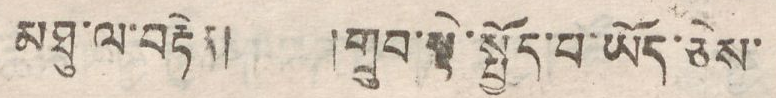མཐུ་ལ་བརྟེན། །གྲུབ་སྟེ་སྤྱོད་པ་ཡོད་ཅེས་
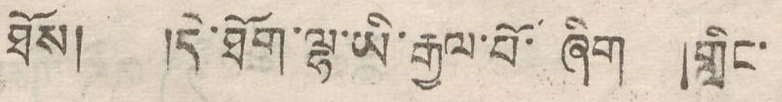ཐོས། །དེ་ཐོག་ལྷ་ཡི་རྒྱལ་པོ་ ཞིག །གླིང་
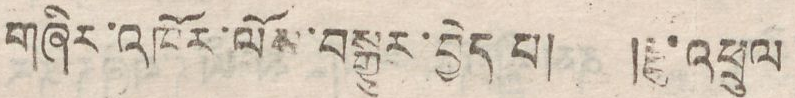གཞིར་འཁོར་ལོས་བསྒྱུར་བྱེད་པ། །རྫུ་འཕྲུལ
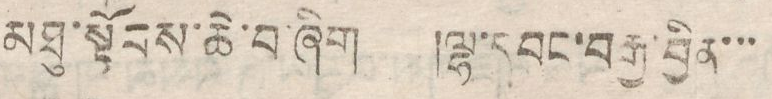མཐུ་སྟོབས་ཆེ་བ་ཞིག །ལྷ་དབང་བརྒྱ་བྱིན་་་
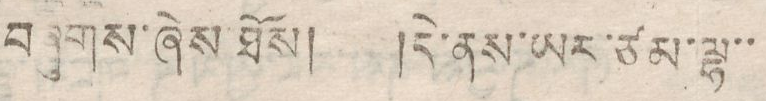བཞུགས་ཞེས་ཐོས། །དེ་ནས་ཡར་ཙམ་ལྷ་་
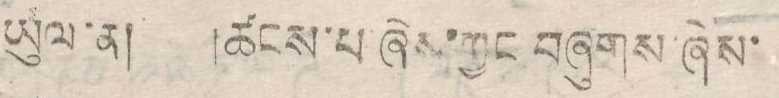ཡུལ་ན། །ཚངས་པ་ཞེས་ཀྱང བཞུགས་ཞེས་
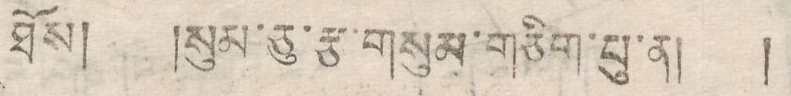ཐོས། །སུམ་ཅུ་རྩ་གསུམ་གཅིག་པུ་ན། །
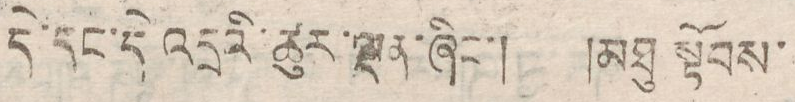དེ་དང་དེ་འདྲའི་ཚུར་ལྡན་ཞིང་། །མཐུ་སྟོབས་
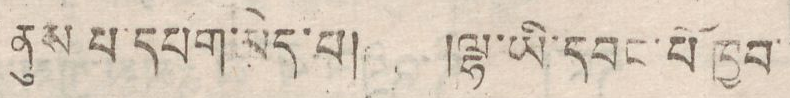ནུས པ་དཔག་མེད་པ། །ལྷ་ཡི་དབང་པོ་ཁྱབ
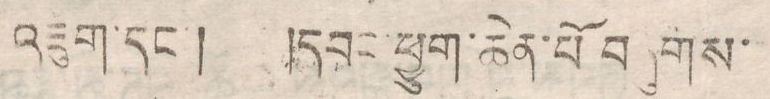འཇུག་དང་། །དབང་ཕྱུག་ཆེན་པོ་བཞུགས་
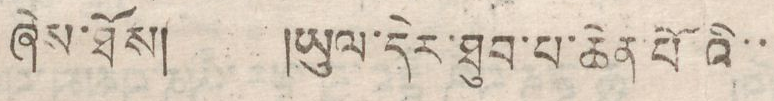ཞེས་ཐོས། །ཡུལ་དེར་ཐུབ་པ་ཆེན་པོའི་་
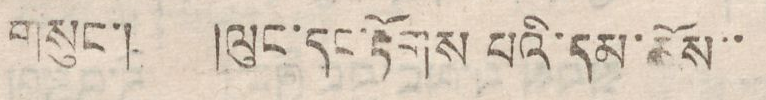གསུང་། །ལུང་དང་རྟོགས པའི་དམ་ཆོས་་
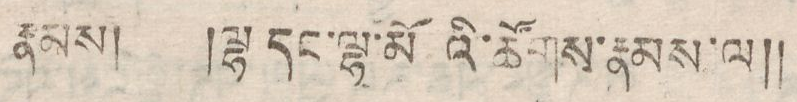རྣམས། །ལྷ དང་ལྷ་མོ འི་ཚོགས་རྣམས་ལ།།
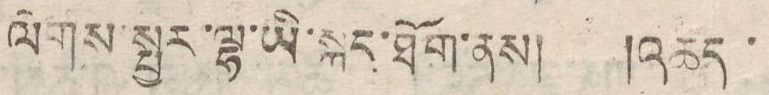ལེགས་སྤྱར་ལྷ་ཡི་སྐད་ཐོག་ནས། །འཆད་
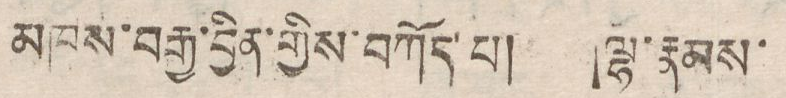མཁས་བརྒྱ་བྱིན་གྱིས་བཀོད་པ། །ལྷོ་རྣམས་
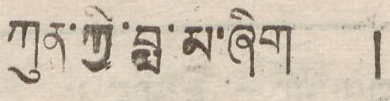ཀུན་ཀྱི་བླ་མ་ཞིག །
